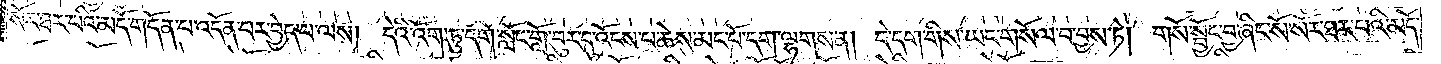སོར་ཐར་པའི་མདོ་གདོན་པ་འདོན་པར་བྱེད་པ་ལས། དེའི་འོག་ཏུ་དགེ་སློང་གློ་བུར་དུ་འོངས་པ་ཆེས་མང་པོ་དག་ལྷགས་ན། དེ་དག་གིས་ཡང་གསོལ་བ་བྱས་ཏེ། གསོ་སྦྱོང་བྱ་ཞིང་སོ་སོར་ཐར་པའི་མདོ་
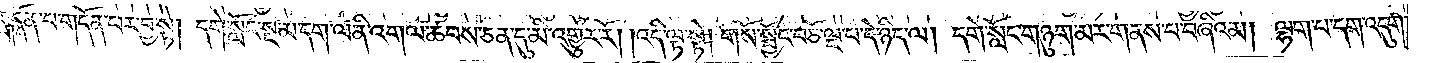གདོན་པ་གདོན་པར་བྱ་སྟེ། དགེ་སློང་སྔ་མ་དག་ལ་ནི་འགལ་ཚབས་ཅན་དུ་མི་འགྱུར་རོ། །འདི་ལྟ་སྟེ། གསོ་སྦྱོང་བཅོ་ལྔ་པ་དེ་ཉིད་ལ། དགེ་སློང་གཉུག་མར་གནས་པ་བཞིའམ། ལྷག་པ་དག་འདུག་
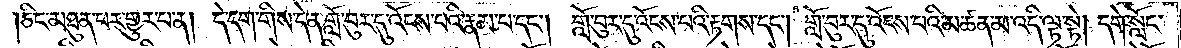།ཅིང་མཐུན་པར་གྱུར་པ་ན། དེ་དག་གིས་དེ་ན་གློ་བུར་དུ་འོངས་པའི་རྣམ་པ་དང༌། གློ་བུར་དུ་འོངས་པའི་རྟགས་དང༌། གློ་བུར་དུ་འོངས་པའི་མཚན་མ་འདི་ལྟ་སྟེ། དགེ་སློང་
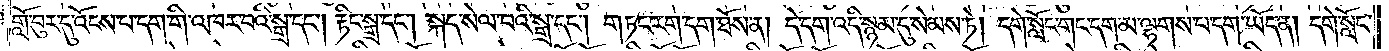གློ་བུར་དུ་འོངས་པ་དག་གི་འཁར་བའི་སྒྲ་དང༌། རྟིང་སྒྲ་དང༌། སྐད་སེལ་བའི་སྒྲ་དང༌། གཏང་རག་དག་ཐོས་ན། དེ་དག་འདི་སྙམ་དུ་སེམས་ཏེ། དགེ་སློང་གང་དག་མ་ལྷགས་པ་དག་ཡོད་ན། དགེ་སློང་
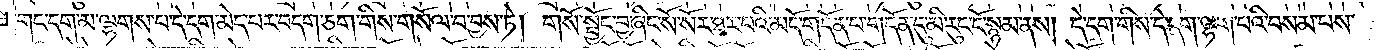གང་དག་མ་ལྷགས་པ་དེ་དག་མེད་པར་བདག་ཅག་གིས་གསོལ་བ་བྱས་ཏེ། གསོ་སྦྱོང་བྱ་ཞིང་སོ་སོར་ཐར་པའི་མདོ་གདོན་པ་གདོན་དུ་མི་རུང་ངོ་སྙམ་ནས། དེ་དག་གིས་དེ་དག་ལྷག་པའི་བསམ་པས་
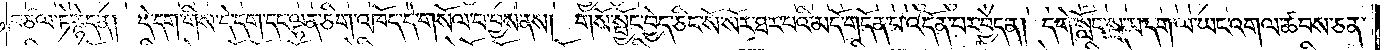བཙལ་ཏེ་རྙེད་ན། དེ་དག་གིས་དེ་དག་དང་ལྷན་ཅིག་འཁོད་དེ་གསོལ་བ་བྱས་ནས། གསོ་སྦྱོང་བྱེད་ཅིང་སོ་སོར་ཐར་པའི་མདོ་གདོན་པ་འདོན་པར་བྱེད་ན། དགེ་སློང་སྔ་མ་དག་ལ་ཡང་འགལ་ཚབས་ཅན་
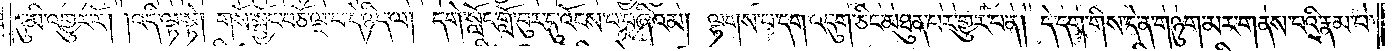དུ་མི་འགྱུར་རོ། །འདི་ལྟ་སྟེ། གསོ་སྦྱོང་བཅོ་ལྔ་པ་དེ་ཉིད་ལ། དགེ་སློང་གློ་བུར་དུ་འོངས་པ་བཞིའམ། ལྷགས་པ་དག་འདུག་ཅིང་མཐུན་པར་གྱུར་པ་ན། དེ་དག་གིས་དེ་ན་གཉུག་མར་གནས་པའི་རྣམ་པ་
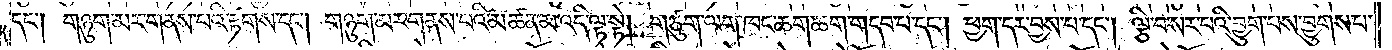དང༌། གཉུག་མར་གནས་པའི་རྟགས་དང༌། གཉུག་མར་གནས་པའི་མཚན་མ་འདི་ལྟ་སྟེ། གཙུག་ལག་ཁང་ཆག་ཆག་གདབ་པ་དང༌། ཕྱག་དར་བྱས་པ་དང༌། ལྕི་བ་སར་པའི་བྱུག་པས་བྱུགས་པ་
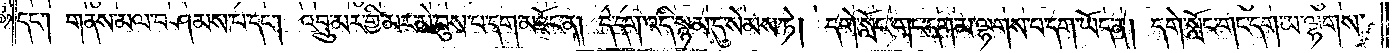དང༌། གནས་མལ་བཤམས་པ་དང༌། འབྲུ་མར་གྱི་མར་མེ་བུས་པ་དག་མཐོང་ན། དེ་དག་འདི་སྙམ་དུ་སེམས་ཏེ། དགེ་སློང་གང་དག་མ་ལྷགས་པ་དག་ཡོད་ན། དགེ་སློང་གང་དག་མ་ལྷགས་
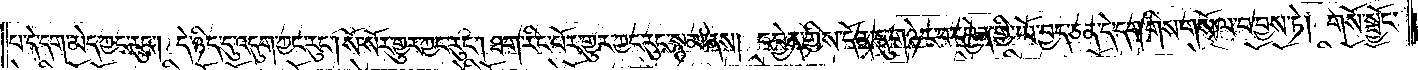པ་དེ་དག་མེད་ཀྱང་རུང༌། དེ་ཉིད་དུ་འདུག་ཀྱང་རུང༌། སོ་སོར་གྱུར་ཀྱང་རུང༌། ཐག་རིང་པོར་གྱུར་ཀྱང་རུང་སྙམ་ནས། དབྱེན་གྱིས་དོན་དུ་གཉེར་བ་དབྱེན་གྱི་ཡོ་བྱད་ཅན་དེ་དག་གིས་གསོལ་བ་བྱས་ཏེ། གསོ་སྦྱོང་
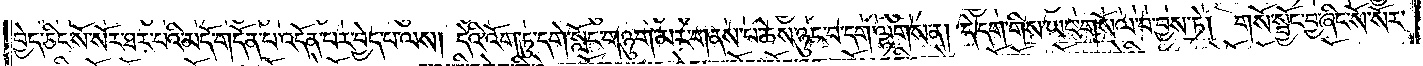བྱེད་ཅིང་སོ་སོར་ཐར་པའི་མདོ་གདོན་པ་འདོན་པར་བྱེད་པ་ལས། དེའི་འོག་ཏུ་དགེ་སློང་གཉུག་མར་གནས་པ་ཆེས་ཉུང་བ་དག་ལྷགས་ན། དེ་དག་གིས་ཡང་གསོལ་བ་བྱས་ཏེ། གསོ་སྦྱོང་བྱ་ཞིང་སོ་སོར་
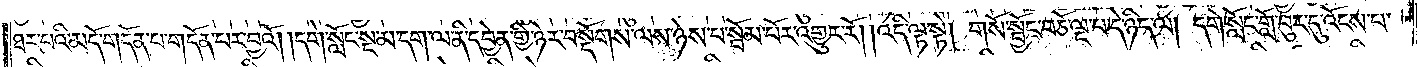ཐར་པའི་མདོ་གདོན་པ་གདོན་པར་བྱའོ། །དགེ་སློང་སྔ་མ་དག་ལ་ནི་དབྱེན་གྱི་ཉེར་བསྡོགས་ལས་ཉེས་པ་སྦོམ་པོར་འགྱུར་རོ། །འདི་ལྟ་སྟེ། གསོ་སྦྱོང་བཅོ་ལྔ་པ་དེ་ཉིད་ལ། དགེ་སློང་བུར་དུ་འོངས་པ་
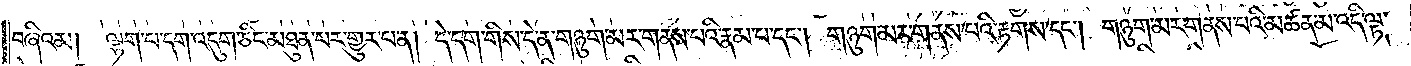བཞིའམ། ལྷག་པ་དག་འདུག་ཅིང་མཐུན་པར་གྱུར་པ་ན། དེ་དག་གིས་དེ་ན་གཉུག་མར་གནས་པའི་རྣམ་པ་དང༌། གཉུག་མར་གནས་པའི་རྟགས་དང༌། གཉུག་མར་གནས་པའི་མཚན་མ་འདི་ལྟ་
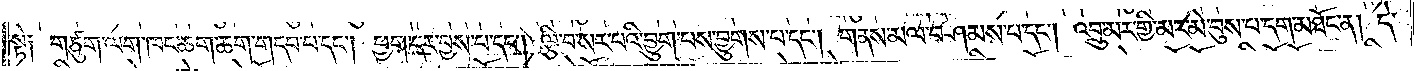སྟེ༑ གཙུག་ལག་ཁང་ཆག་ཆག་གདབ་པ་དང༌། ཕྱག་དར་བྱས་པ་དང༌། ལྕི་བ་སར་པའི་བྱུག་པས་བྱུགས་པ་དང༌། གནས་མལ་བཤམས་པ་དང༌། འབྲུ་མར་གྱི་མར་མེ་བུས་པ་དག་མཐོང་ན། དེ་
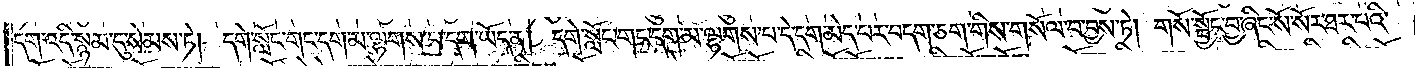དག་འདི་སྙམ་དུ་སེམས་ཏེ། དགེ་སློང་གང་དག་མ་ལྷགས་པ་དག་ཡོད་ན། དགེ་སློང་གང་དག་མ་ལྷགས་པ་དེ་དག་མེད་པར་བདག་ཅག་གིས་གསོལ་བ་བྱས་ཏེ། གསོ་སྦྱོང་བྱ་ཞིང་སོ་སོར་ཐར་པའི་སོར
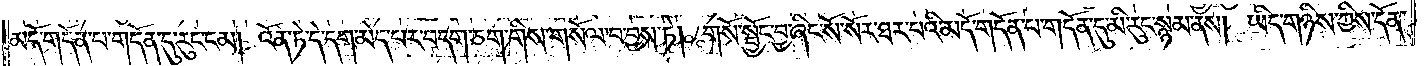མདོ་གདོན་པ་གདོན་དུ་རུང་ངམ། འོན་ཏེ་དེ་དག་མེད་པར་བདག་ཅག་གིས་གསོལ་བ་བྱས་ཏེ། གསོ་སྦྱོང་བྱ་ཞིང་སོ་སོར་ཐར་པའི་མདོ་གདོན་པ་གདོན་དུ་མི་རུང་སྙམ་ནས། ཡིད་གཉིས་ཀྱིས་དོན་
